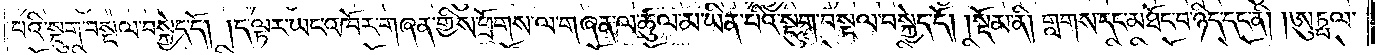པའི་སྡུག་བསྔལ་བསྐྱེད་དོ། །ད་ལྟར་ཡང་འཁོར་གཞན་གྱིས་ཕྲོགས་ལ་གཞན་ལ་ཚུལ་མ་ཡིན་པའི་སྡུག་བསྔལ་བསྐྱེད་དོ།    །སྡོམ་ནི། གླགས་དང་མཐོང་བ་ཉིད་དང་ནི། །ཨུཏྤལ་
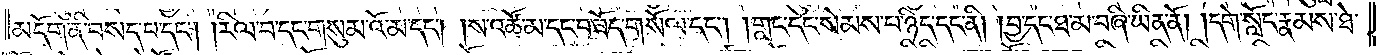མདོག་ནི་བསད་པ་དང༌། །རིལ་བ་དང་གསུམ་འོ་མ་དང༌། །ས་འཚོ་མ་དང་བཟོད་གསོལ་དང༌། །གླང་དང་སེམས་པ་ཉིད་དང་ནི། །བྱ་དང་ཐ་མ་བཞི་ཡིན་ནོ། །དགེ་སློང་རྣམས་ཐེ་
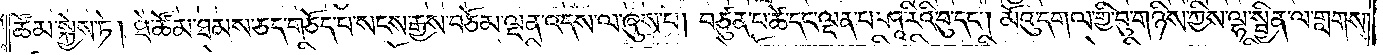ཚོམ་སྐྱེས་ཏེ། ཐེ་ཚོམ་ཐམས་ཅད་གཅོད་པ་སངས་རྒྱས་བཅོམ་ལྡན་འདས་ལ་ཞུས་པ། བཙུན་པ་ཚེ་དང་ལྡན་པ་ཤཱ་རིའི་བུ་དང༌། མོའུ་དགལ་གྱི་བུ་གཉིས་ཀྱིས་ལྷ་སྦྱིན་ལ་གླགས་
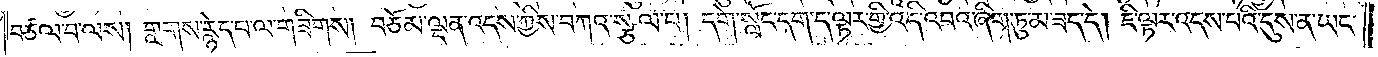བཙལ་བ་ལས། གླགས་རྙེད་པ་ལ་གཟིགས། བཅོམ་ལྡན་འདས་ཀྱིས་བཀའ་སྩལ་པ། དགེ་སློང་དག་ད་ལྟར་གྱི་འདི་འབའ་ཞིག་ཏུ་མ་ཟད་དེ། ཇི་ལྟར་འདས་པའི་དུས་ན་ཡང་
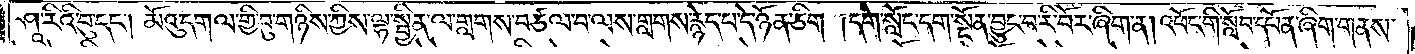ཤཱ་རིའི་བུ་དང༌། མོའུ་དགལ་གྱི་བུ་གཉིས་ཀྱིས་ལྷ་སྦྱིན་ལ་གླགས་བཙལ་བ་ལས་གླགས་རྙེད་པ་དེ་ཉོན་ཅིག །དགེ་སློང་དག་སྔོན་བྱུང་བ་རི་བོར་ཞིག་ན། འཕོང་གི་སློབ་དཔོན་ཞིག་གནས་
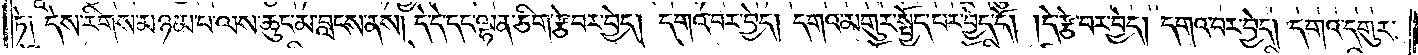ཏེ༑ དེས་རིགས་མཉམ་པ་ལས་ཆུང་མ་བླངས་ནས་དེ་དེ་དང་ལྷན་ཅིག་རྩེ་བར་བྱེད། དགའ་བར་བྱེད། དགའ་མགུར་སྤྱོད་པར་བྱེད་དོ། །དེ་རྩེ་བར་བྱེད། དགའ་བར་བྱེད། དགའ་དགུར་
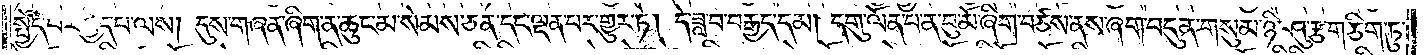སྤྱོད་པར་བྱེད་པ་ལས། དུས་གཞན་ཞིག་ན་ཆུང་མ་སེམས་ཅན་དང་ལྡན་པར་གྱུར་ཏེ། དེ་ཟླ་བ་བརྒྱད་དམ། དགུ་ལོན་པ་ན་བུ་མོ་ཞིག་བཙས་ནས་ཞག་བདུན་གསུམ་ཉི་ཤུ་རྩ་གཅིག་ཏུ་
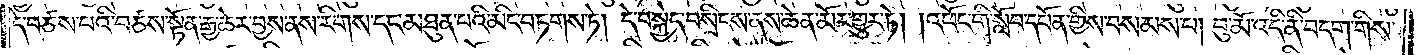དེ་བཙས་པའི་བཙས་སྟོན་རྒྱ་ཆེར་བྱས་ནས་རིགས་དང་མཐུན་པའི་མིང་བཏགས་ཏེ། དེ་བསྐྱེད་བསྲིངས་ནས་ཆེན་མོར་གྱུར་ཏེ། །འཕོང་གི་སློབ་དཔོན་གྱིས་བསམས་པ། བུ་མོ་འདི་ནི་བདག་གིས་
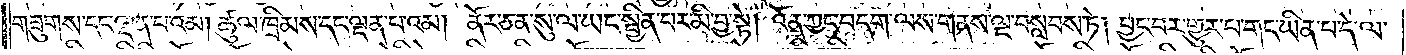གཟུགས་དང་ལྡན་པའམ། ཚུལ་ཁྲིམས་དང་ལྡན་པའམ། ནོར་ཅན་སུ་ལ་ཡང་སྦྱིན་པར་མི་བྱ་སྟེ། འོན་ཀྱང་བདག་ལས་གནས་ལྔ་བསླབས་ཏེ། བྱང་བར་གྱུར་པ་གང་ཡིན་པ་དེ་ལ་
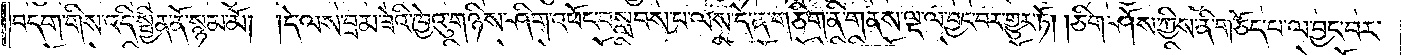བདག་གིས་འདི་སྦྱིན་ནོ་སྙམ་མོ། །དེ་ལས་བྲམ་ཟེའི་ཁྱེའུ་གཉིས་ཤིག་འཕོང་བསླབས་པ་ལས་དེ་ན་གཅིག་ནི་གནས་ལྔ་ལ་བྱང་བར་གྱུར་ཏོ། །ཅིག་ཤོས་ཀྱིས་ནི་གཅོད་པ་ལ་བྱང་བར་
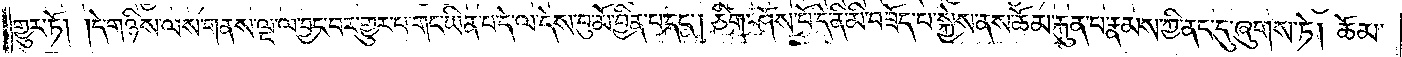གྱུར་ཏོ། །དེ་གཉིས་ལས་གནས་ལྔ་ལ་བྱང་བར་གྱུར་པ་གང་ཡིན་པ་དེ་ལ་དེས་བུ་མོ་བྱིན་པ་དང༌། ཅིག་ཤོས་པོ་དེ་ནི་མི་བཟོད་པ་སྐྱེས་ནས་ཆོམ་རྐུན་པ་རྣམས་ཀྱི་ནང་དུ་ཞུགས་ཏེ། ཆོམ་
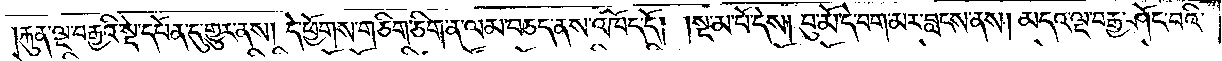རྐུན་ལྔ་བརྒྱའི་སྡེ་དཔོན་དུ་གྱུར་ནས། དེ་ཕྱོགས་གཅིག་ཅིག་ན་ལམ་བཅད་ནས་འཁོད་དོ། །སྔ་མ་པོ་དེས། བུ་མོ་དེ་བག་མར་བླངས་ནས། མདའ་ལྔ་བརྒྱ་ཤོང་བའི་
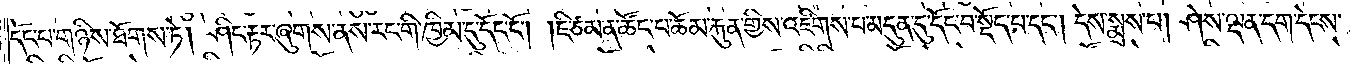དང་པོ་གཉིས་ཐོགས་ཏེ། ཤིང་རྟར་ཞུགས་ནས་རང་གི་ཁྱིམ་དུ་དོང་ངོ༌། །ཇི་ཙམ་ན་ཚོང་པ་ཆོམ་རྐུན་གྱིས་འཇིགས་པ་མདུན་དུ་དོང་བ་སྡོད་པ་དང༌། དེས་སྨྲས་པ། ཤེས་ལྡན་དག་དེངས་
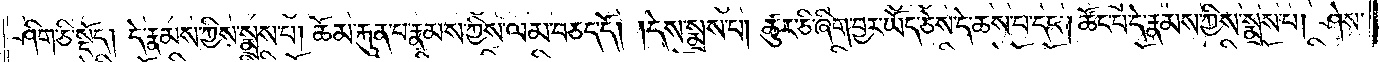ཤིག་ཅི་སྡོད། དེ་རྣམས་ཀྱིས་སྨྲས་པ། ཆོམ་རྐུན་པ་རྣམས་ཀྱིས་ལམ་བཅད་དོ། །དེས་སྨྲས་པ། ཚུར་ཅི་ཞིག་བྱར་ཡོད་ཅེས་དེ་ཆས་པ་དང༌། ཚོང་པ་དེ་རྣམས་ཀྱིས་སྨྲས་པ། ཤེས་
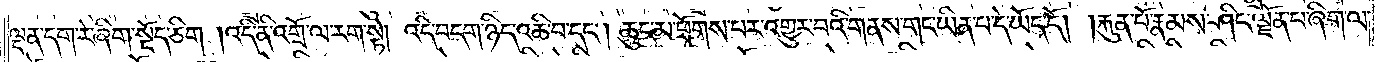ལྡན་དག་རེ་ཞིག་སྡོད་ཅིག །འདི་ནི་འགྲོ་ལ་རག་སྟེ། འདི་བདག་ཉིད་འཆི་བ་དང༌། ཆུང་མ་ཕྲོགས་པར་འགྱུར་བའི་གནས་གང་ཡིན་པ་དེ་ཡོད་དོ། །རྐུན་པོ་རྣམས་ཤིང་ལྗོན་པ་ཞིག་ལ་
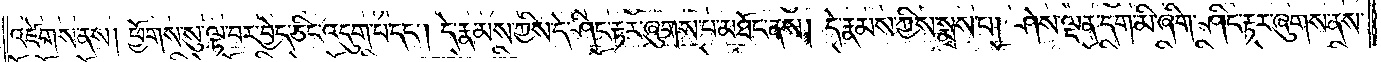འཛེགས་ནས། ཕྱོགས་སུ་ལྟ་བར་བྱེད་ཅིང་འདུག་པ་དང༌། དེ་རྣམས་ཀྱིས་དེ་ཤིང་རྟར་ཞུགས་པ་མཐོང་ནས། དེ་རྣམས་ཀྱིས་སྨྲས་པ། ཤེས་ལྡན་དག་མི་ཞིག་ཤིང་རྟར་ཞུགས་ནས་
